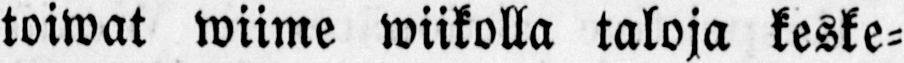toiwat wiime wiikolla taloja keske-
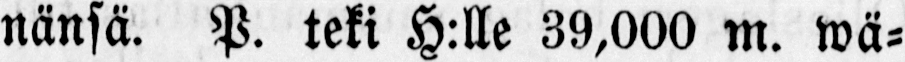nänsä. P. teki H:lle 39,000 m. wä-
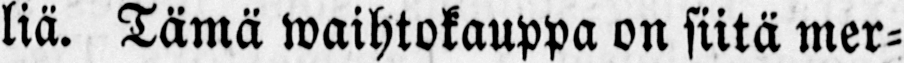lliä. Tämä waihtokauppa on siitä mer-
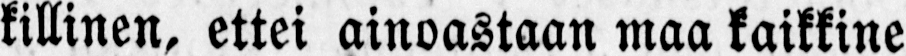killinen, ettei ainoastaan maa kaikkine
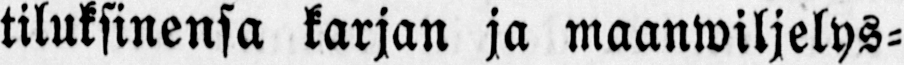tiluksinensa karjan ja maanwiljelys-
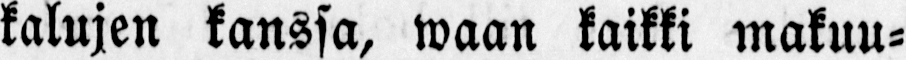kalujen kanssa, waan kaikki makuu-
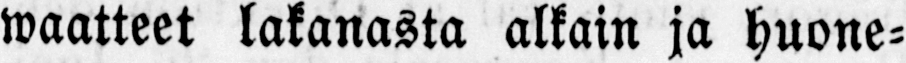waatteet lakanasta alkain ja huone-
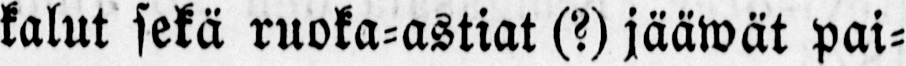kalut sekä ruoka-astiat (?) jääwät pai-
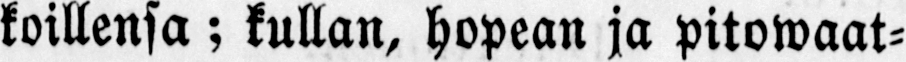koillensa ; kullan, hopean ja pitowaat-
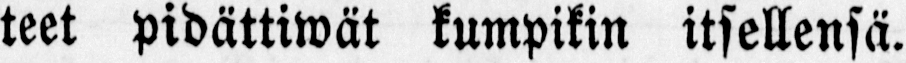teet pidättiwät kumpikin itsellensä.
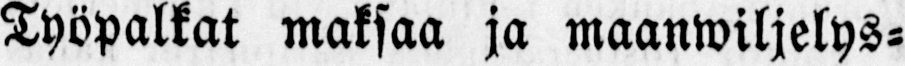Työpalkat maksaa ja maanwiljelys-
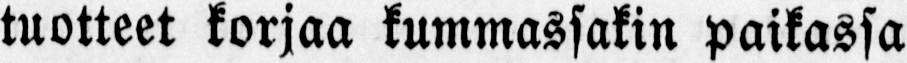tuotteet korjaa kummassakin paikassa
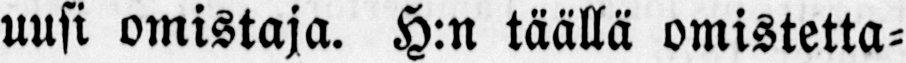uusi omistaja. H:n täällä omistetta-
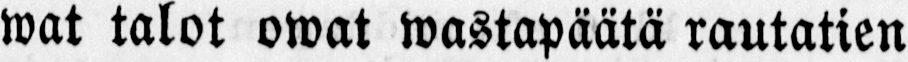wat talot owat wastapäätä rautatien
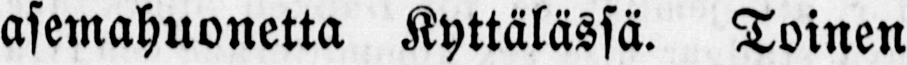asemahuonetta Kyttälässä. Toinen
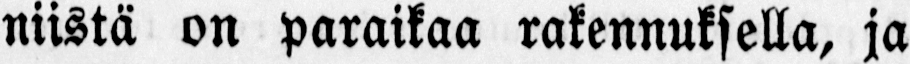niistä on paraikaa rakennuksella, ja
